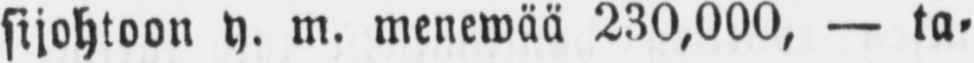sijohtoon y. m. menewää 230,000, — ta-
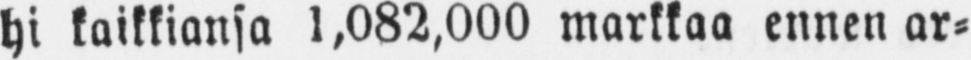hi kaikkiansa l,082,000 markkaa ennen ar-
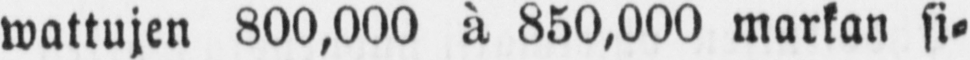wattujen 800,000 ä 850,000 markan si-
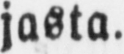jasta.
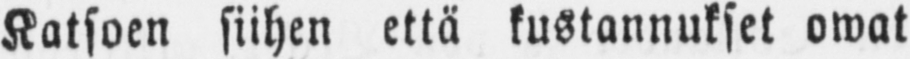Katsoen siihen että kustannukset owat
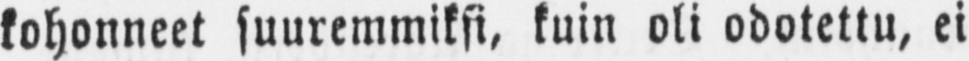kohonneet suuremmiksi, kuin oli odotettu, ei
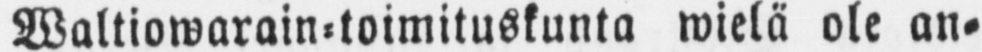Waltiowarain-toimituskunta wielä ole an-
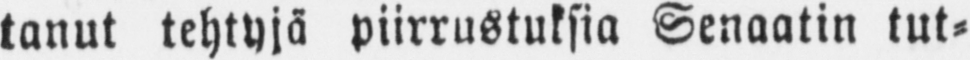tanut tehtyjä piirrustuksia Senaatin tut-
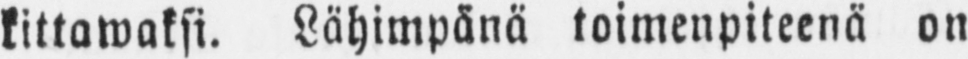kittawaksi. Lähimpänä toimenpiteenä on
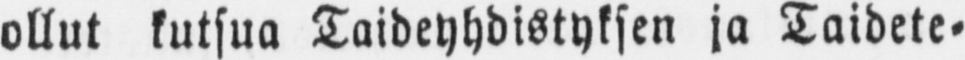ollut kutsua Taideyhdistyksen ja Taidete-
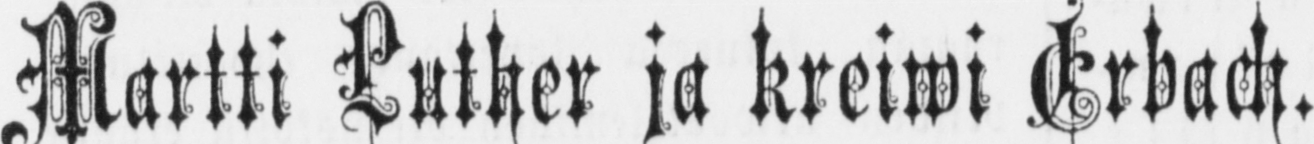Martti Luther ja kreiwi Erbach.
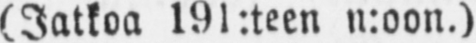(Jatkoa 191:teen n:oon.)
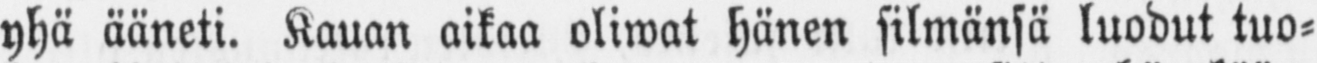yhä ääneti. Kauan aikaa oliwat hänen silmänsä luodut tuo-
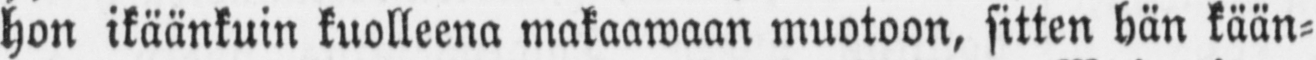hon ikäänkuin kuolleena makaawaan muotoon, sitten hän kään-
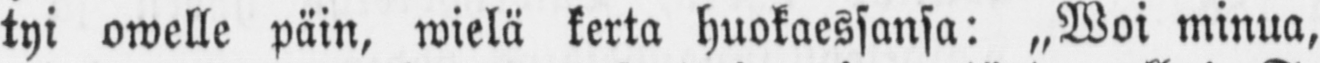tyi owelle päin, wielä kerta huokaessansa: „Woi minua,
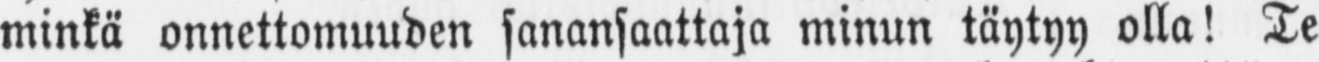minkä onnettomuuden sanansaattaja minun täytyy olla! Te
